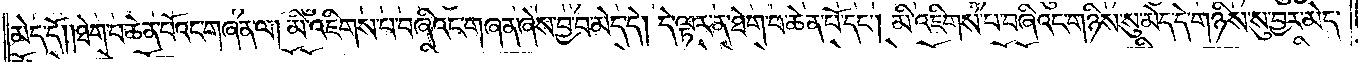མེད་དོ། །ཐེག་པ་ཆེན་པོའང་གཞན་ལ། མི་འཇིགས་པ་བཞིའང་གཞན་ཞེས་བྱ་བ་མེད་དེ། དེ་ལྟར་ན་ཐེག་པ་ཆེན་པོ་དང༌། མི་འཇིགས་པ་བཞིའང་གཉིས་སུ་མེད་དེ་གཉིས་སུ་བྱར་མེད་
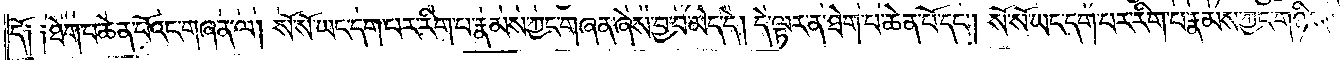དོ། །ཐེག་པ་ཆེན་པོའང་གཞན་ལ། སོ་སོ་ཡང་དག་པར་རིག་པ་རྣམས་ཀྱང་གཞན་ཞེས་བྱ་བ་མེད་དེ། དེ་ལྟར་ན་ཐེག་པ་ཆེན་པོ་དང༌། སོ་སོ་ཡང་དག་པར་རིག་པ་རྣམས་ཀྱང་གཉིས་
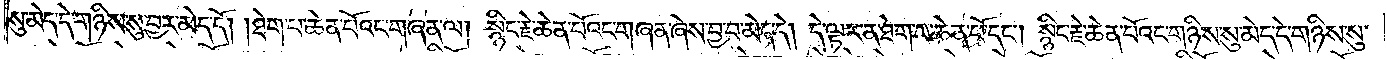སུ་མེད་དེ་གཉིས་སུ་བྱར་མེད་དོ། །ཐེག་པ་ཆེན་པོའང་གཞན་ལ། སྙིང་རྗེ་ཆེན་པོའང་གཞན་ཞེས་བྱ་བ་མེད་དེ། དེ་ལྟར་ན་ཐེག་པ་ཆེན་པོ་དང༌། སྙིང་རྗེ་ཆེན་པོའང་གཉིས་སུ་མེད་དེ་གཉིས་སུ་
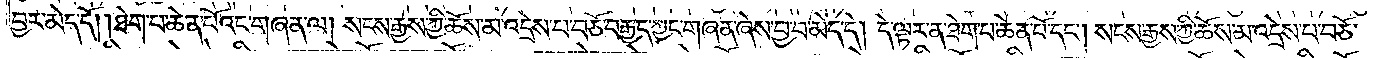བྱར་མེད་དོ། །ཐེག་པ་ཆེན་པོའང་གཞན་ལ། སངས་རྒྱས་ཀྱི་ཆོས་མ་འདྲེས་པ་བཅོ་བརྒྱད་ཀྱང་གཞན་ཞེས་བྱ་བ་མེད་དེ། དེ་ལྟར་ན་ཐེག་པ་ཆེན་པོ་དང༌། སངས་རྒྱས་ཀྱི་ཆོས་མ་འདྲེས་པ་བཅོ་
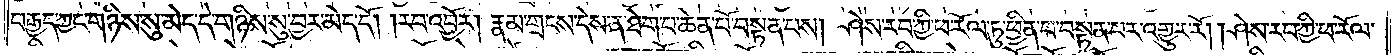བརྒྱད་ཀྱང་གཉིས་སུ་མེད་དེ་གཉིས་སུ་བྱར་མེད་དོ། །རབ་འབྱོར། རྣམ་གྲངས་དེས་ན་ཐེག་པ་ཆེན་པོ་བསྟན་པས། ཤེས་རབ་ཀྱི་ཕ་རོལ་ཏུ་ཕྱིན་པ་བསྟན་པར་འགྱུར་རོ། །ཤེས་རབ་ཀྱི་ཕ་རོལ་
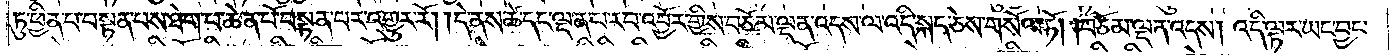ཏུ་ཕྱིན་པ་བསྟན་པས་ཐེག་པ་ཆེན་པོ་བསྟན་པར་འགྱུར་རོ། །དེ་ནས་ཚེ་དང་ལྡན་པ་རབ་འབྱོར་གྱིས་བཅོམ་ལྡན་འདས་ལ་འདི་སྐད་ཅེས་གསོལ་ཏོ། །བཅོམ་ལྡན་འདས། འདི་ལྟར་ཡང་བྱང་
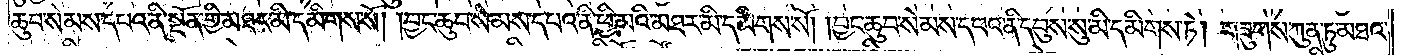ཆུབ་སེམས་དཔའ་ནི་སྔོན་གྱི་མཐར་མི་དམིགས་སོ། །བྱང་ཆུབ་སེམས་དཔའ་ནི་ཕྱི་མའི་མཐར་མི་དམིགས་སོ། །བྱང་ཆུབ་སེམས་དཔའ་ནི་དབུས་སུ་མི་དམིགས་ཏེ། གཟུགས་ཀུན་ཏུ་མཐའ་
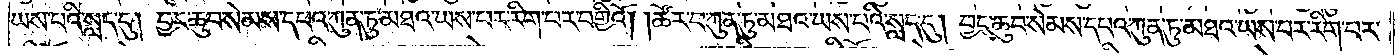ཡས་པའི་སླད་དུ། བྱང་ཆུབ་སེམས་དཔའ་ཀུན་ཏུ་མཐའ་ཡས་པར་རིག་པར་བགྱིའོ། །ཚོར་བ་ཀུན་ཏུ་མཐའ་ཡས་པའི་སླད་དུ། བྱང་ཆུབ་སེམས་དཔའ་ཀུན་ཏུ་མཐའ་ཡས་པར་རིག་པར་
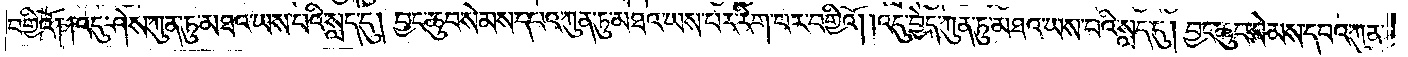བགྱིའོ། །འདུ་ཤེས་ཀུན་ཏུ་མཐའ་ཡས་པའི་སླད་དུ། བྱང་ཆུབ་སེམས་དཔའ་ཀུན་ཏུ་མཐའ་ཡས་པར་རིག་པར་བགྱིའོ། །འདུ་བྱེད་ཀུན་ཏུ་མཐའ་ཡས་པའི་སླད་དུ། བྱང་ཆུབ་སེམས་དཔའ་ཀུན་
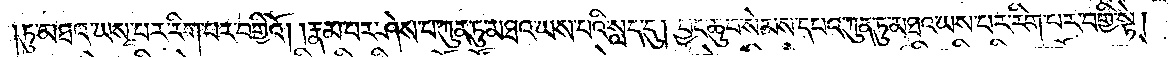ཏུ་མཐའ་ཡས་པར་རིག་པར་བགྱིའོ། །རྣམ་པར་ཤེས་པ་ཀུན་ཏུ་མཐའ་ཡས་པའི་སླད་དུ། བྱང་ཆུབ་སེམས་དཔའ་ཀུན་ཏུ་མཐའ་ཡས་པར་རིག་པར་བགྱི་སྟེ།
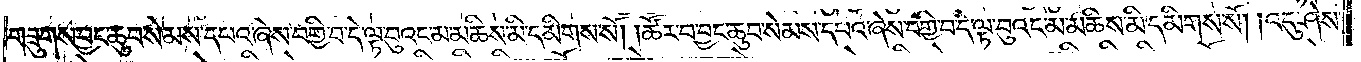གཟུགས་བྱང་ཆུབ་སེམས་དཔའ་ཞེས་བགྱི་བ་དེ་ལྟ་བུའང་མ་མཆིས་མི་དམིགས་སོ། །ཚོར་བ་བྱང་ཆུབ་སེམས་དཔའ་ཞེས་བགྱི་བ་དེ་ལྟ་བུའང་མ་མཆིས་མི་དམིགས་སོ། །འདུ་ཤེས་
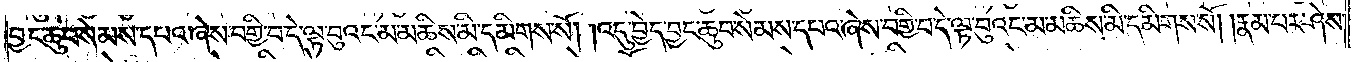བྱང་ཆུབ་སེམས་དཔའ་ཞེས་བགྱི་བ་དེ་ལྟ་བུའང་མ་མཆིས་མི་དམིགས་སོ། །འདུ་བྱེད་བྱང་ཆུབ་སེམས་དཔའ་ཞེས་བགྱི་བ་དེ་ལྟ་བུའང་མ་མཆིས་མི་དམིགས་སོ། །རྣམ་པར་ཤེས་
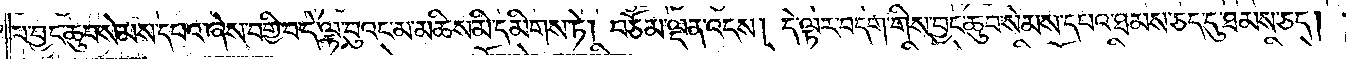པ་བྱང་ཆུབ་སེམས་དཔའ་ཞེས་བགྱི་བ་དེ་ལྟ་བུའང་མ་མཆིས་མི་དམིགས་ཏེ། བཅོམ་ལྡན་འདས། དེ་ལྟར་བདག་གིས་བྱང་ཆུབ་སེམས་དཔའ་ཐམས་ཅད་དུ་ཐམས་ཅད།
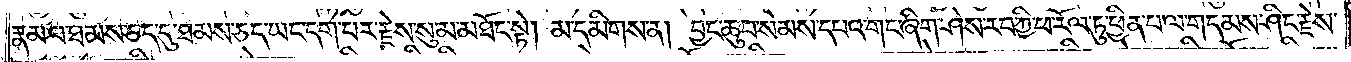རྣམ་པ་ཐམས་ཅད་དུ་ཐམས་ཅད་ཡང་དག་པར་རྗེས་སུ་མ་མཐོང་སྟེ། མ་དམིགས་ན། བྱང་ཆུབ་སེམས་དཔའ་གང་ཞིག་ཤེས་རབ་ཀྱི་ཕ་རོལ་ཏུ་ཕྱིན་པ་ལ་གདམས་ཤིང་རྗེས་
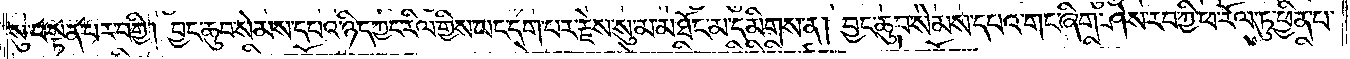སུ་བསྟན་པར་བགྱི། བྱང་ཆུབ་སེམས་དཔའ་ཉིད་ཀྱང་རིལ་གྱིས་ཡང་དག་པར་རྗེས་སུ་མ་མཐོང་མ་དམིགས་ན། བྱང་ཆུབ་སེམས་དཔའ་གང་ཞིག་ཤེས་རབ་ཀྱི་ཕ་རོལ་ཏུ་ཕྱིན་པ་
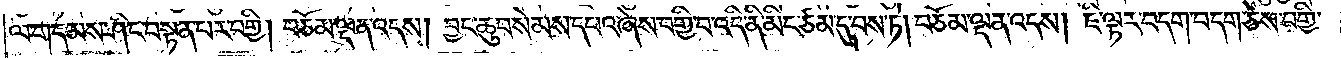ལ་གདམས་ཤིང་བསྟན་པར་བགྱི། བཅོམ་ལྡན་འདས། བྱང་ཆུབ་སེམས་དཔའ་ཞེས་བགྱི་བ་འདི་ནི་མིང་ཙམ་དུ་བས་ཏེ། བཅོམ་ལྡན་འདས། ཇི་ལྟར་བདག་བདག་ཅེས་བགྱི་
